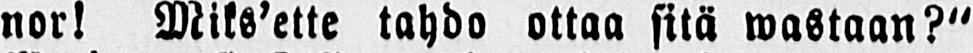nor! Miks'ette tahdo ottaa sitä wastaan?"
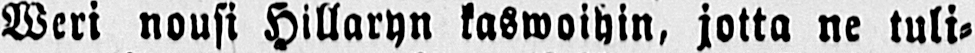Weri nousi Hillaryn kaswoihin, jotta ne tuli-
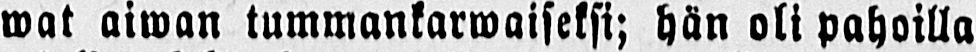wat aiwan tummankarwaiseksi; hän oli pahoilla
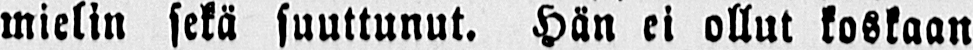mielin sekä suuttunut. Hän ei ollut koskaan
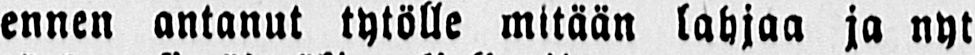ennen antanut tytölle mitään lahjaa ja nyt
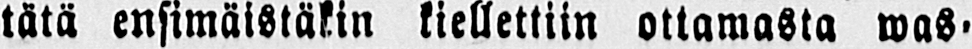tätä ensimäistäkin kiellettiin ottamasta was-
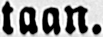taan.
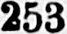353
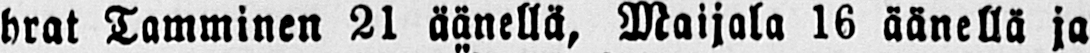hrat Tamminen 21 äänellä, Maijala 16 äänellä ja
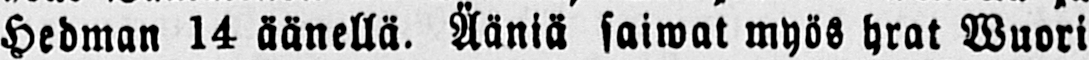Hedman 14 äänellä. Ääniä saiwat myös hrat Wuori
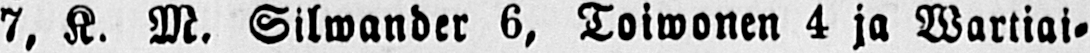7, K. M. Silwander 6, Toiwonen 4 ja Wartiai-
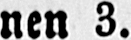nen 3.
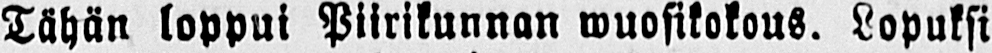Tähän loppui Piirikunnan wuosikokous. Lopuksi
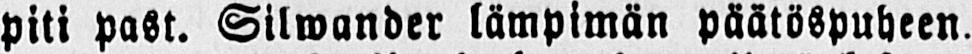piti past. Silwander lämpimän päätöspuheen.
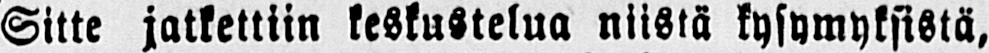Sitte jatkettiin keskustelua niistä kysymyksistä,
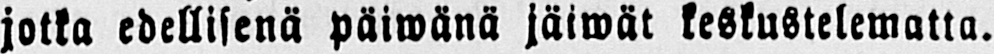jotka edellisenä päiwänä jäiwät keskustelematta.
